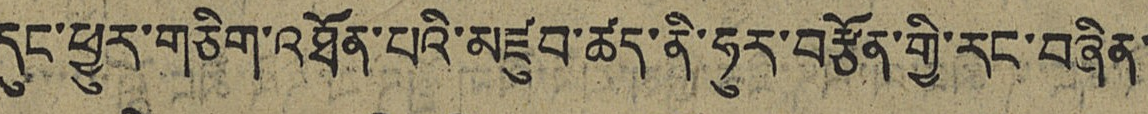དུང་ཕྱུར་གཅིག་འཐོན་པའི་མཛུབ་ཚད་ནི་ཧུར་བརྩོན་གྱི་རང་བཞིན་
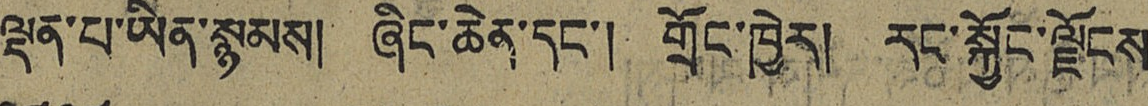ལྡན་པ་ཡིན་སྙམས། ཞིང་ཆེན་དང་། གྲོང་ཁྱེར། རང་སྐྱོང་ལྗོངས་
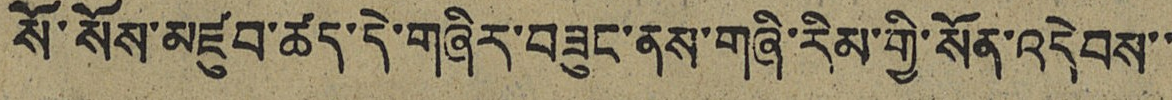སོ་སོས་མཛུབ་ཚད་དེ་གཞིར་བཟུང་ནས་གཞི་རིམ་གྱི་སོན་འདེབས་་
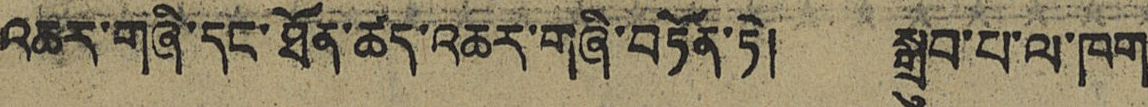འཆར་གཞི་དང་ཐོན་ཚད་འཆར་གཞི་བཏོན་ཏེ། སྒྲུབ་པ་ལ་ཁག་
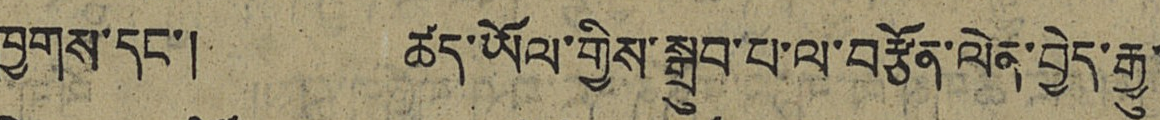ཁྱགས་དང་། ཚད་ཡོལ་གྱིས་སྒྲུབ་པ་ལ་བརྩོན་ལེན་བྱེད་རྒྱུ་
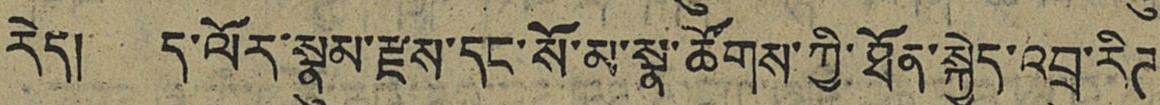རེད། ད་ལོར་སྣུམ་རྫས་དང་སོ་མ་སྣ་ཚོགས་ཀྱི་ཐོན་སྐྱེད་འབྲུ་རིཊ་
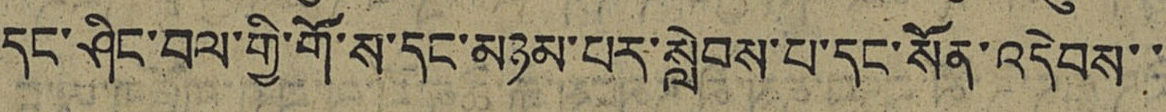དང་ཤིང་བལ་གྱི་གོ་ས་དང་མཉམ་པར་སླེབས་པ་དང་སོན་འདེབས་་
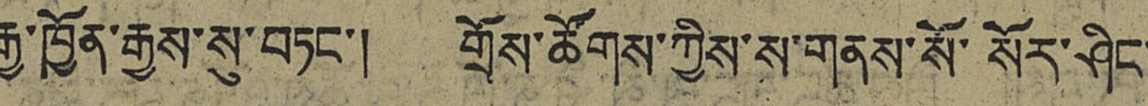རྒྱ་ཁྱོན་རྒྱས་སུ་བཏང་། གྲོས་ཚོགས་ཀྱིས་ས་གནས་སོ་སོར་ཤིང་
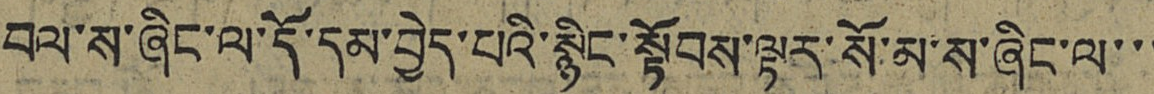བལ་ས་ཞིང་ལ་དོ་དམ་བྱེད་པའི་སྙིང་སྟོབས་ལྟར་སོ་མ་ས་ཞིང་ལ་་་
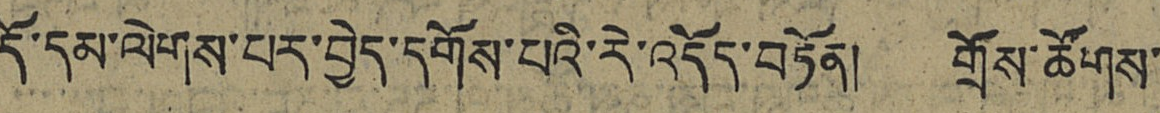དོ་དམ་ལེགས་པར་བྱེད་དགོས་པའི་རེ་འདོད་བཏོན། གྲོས་ཚོགས་
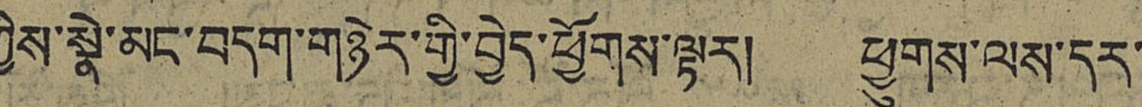ཀྱིས་སྣེ་མང་བདག་གཉེར་གྱི་བྱེད་ཕྱོགས་ལྟར། ཕྱུགས་ལས་དར་
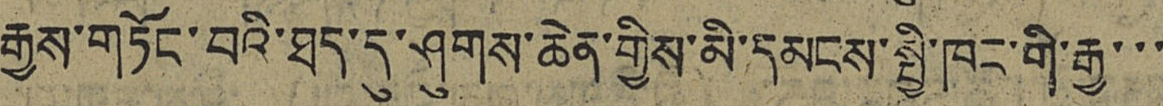རྒྱས་གཏོང་བའི་ཐད་དུ་ཤུགས་ཆེན་གྱིས་མི་དམངས་སྤྱི་ཁང་གི་རྒྱ་་་
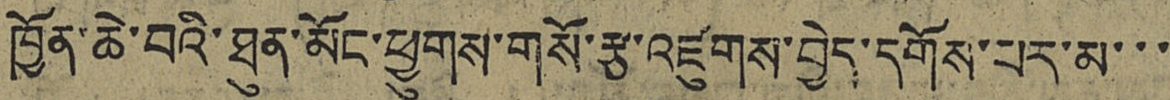ཁྱོན་ཆེ་བའི་ཐུན་མོང་ཕྱུགས་གསོ་རྩ་འཛུགས་བྱེད་དགོས་པར་མ་་་
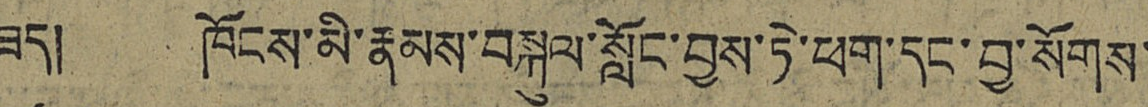ཟད། ཁོངས་མི་རྣམས་བསྐུལ་སློང་བྱས་ཏེ་ཕག་དང་བྱ་སོགས་
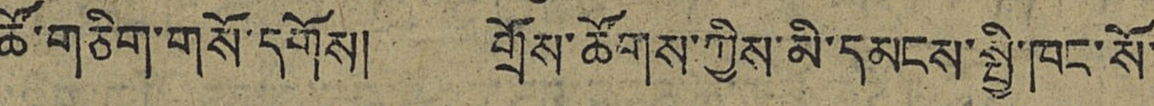ཚོ་གཅིག་གསོ་དགོས། གྲོས་ཚོགས་ཀྱིས་མི་དམངས་སྤྱི་ཁང་སོ་
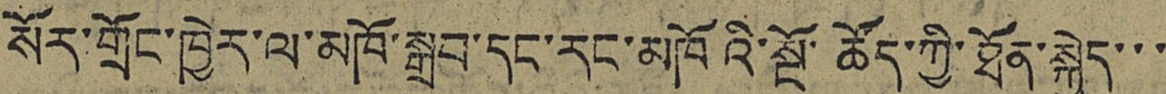སོར་གྲོང་ཁྱེར་ལ་མཁོ་སྒྲུབ་དང་རང་མཁོའི་སྔོ་ཚོད་ཀྱི་ཐོན་སྐྱེད་་་
